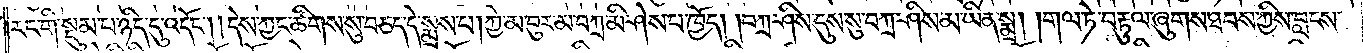རང་གི་སྡུམ་པ་ཉིད་དུ་འདོང༌། །དེས་ཀྱང་ཚིགས་སུ་བཅད་དེ་སྨྲས་པ། ཀྱེ་མ་བུར་མ་བཀྲ་མི་ཤེས་པ་ཁྱོད། །བཀྲ་ཤིས་དུས་སུ་བཀྲ་ཤིས་མ་ཡིན་སྨྲ། །གལ་ཏེ་བརྟུལ་ཞུགས་ཐབས་ཀྱིས་བླངས་
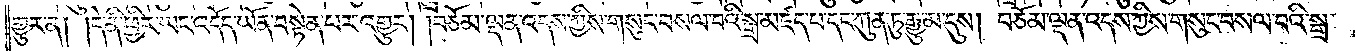གྱུར་ན། །དེ་ནི་ཕྱིར་ཡང་འདོད་ཡོན་བསྟེན་པར་འགྱུར། །བཅོམ་ལྡན་འདས་ཀྱིས་གསུང་བསལ་བའི་སྒྲ་མཛད་པ་དང་ཀུན་ཏུ་རྒྱུ་མ་དུས། བཅོམ་ལྡན་འདས་ཀྱིས་གསུང་བསལ་བའི་སྒྲ་
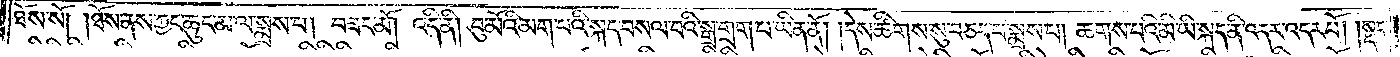ཐོས་སོ། །ཐོས་ནས་ཀྱང་ཆུང་མ་ལ་སྨྲས་པ། བཟང་མོ། འདི་ནི། བུ་མོའི་མག་པའི་སྐད་བསལ་བའི་སྒྲ་གྲག་པ་ཡིན་ནོ། །དེས་ཚིགས་སུ་བཅད་པ་སྨྲས་པ། ཆགས་པའི་མི་ཡི་སྐད་ནི་འདར་འདར་པོ། །སྡང་
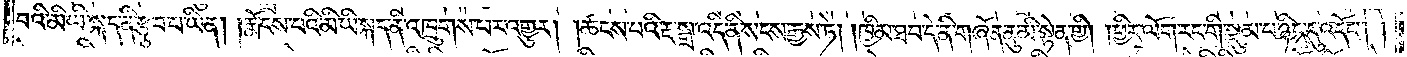བའི་མི་ཡི་སྐད་ནི་རྩུབ་པ་ཡིན། །རྨོངས་པའི་མི་ཡི་སྐད་ནི་འཁྲུགས་པར་འགྱུར། །ཚངས་པའི་རྔ་སྒྲ་འདི་ནི་སངས་རྒྱས་ཏེ། །ཁྱིམ་ཐབ་དེ་ནི་གཞོན་ནུ་མི་སྟེན་གྱི། །ཕྱིར་ལོག་རང་གི་སྡུམ་པ་ཉིད་དུ་འདོང༌། །
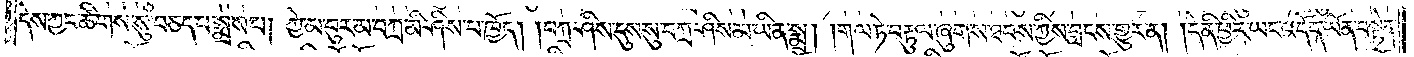དེས་ཀྱང་ཚིགས་སུ་བཅད་པ་སྨྲས་པ། ཀྱེ་མ་བུར་མ་བཀྲ་མི་ཤིས་པ་ཁྱོད། །བཀྲ་ཤིས་དུས་སུ་བཀྲ་ཤིས་མ་ཡིན་སྨྲ་།གལ་ཏེ་བརྟུལ་ཞུགས་ཐབས་ཀྱིས་བླངས་གྱུར་ན། །དེ་ནི་ཕྱིར་ཡང་འདོད་ཡོན་བསྟེན་
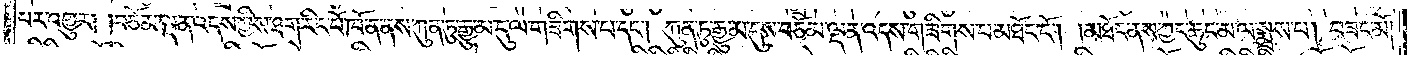པར་འགྱུར། །བཅོམ་ལྡན་འདས་ཀྱིས་ཐག་རིང་པོ་ཁོ་ན་ནས་ཀུན་ཏུ་རྒྱུ་མ་དུ་ལ་གཟིགས་པ་དང༌། ཀུན་ཏུ་རྒྱུ་མ་དུས་བཅོམ་ལྡན་འདས་གཟིགས་པ་མཐོང་ངོ༌། །མཐོང་ནས་ཀྱང་ཆུང་མ་ལ་སྨྲས་པ། བཟང་མོ།
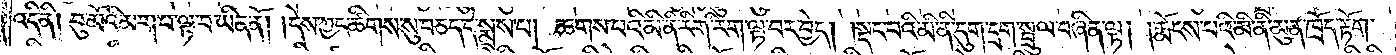འདི་ནི། བུ་མོའི་མག་པ་ལྟ་བ་ཡིན་ནོ། །དེས་ཀྱང་ཚིགས་སུ་བཅད་དེ་སྨྲས་པ། ཆགས་པའི་མི་ནི་རིག་རིག་ལྟ་བར་བྱེད། །སྡང་བའི་མི་ནི་དུག་དྲག་སྦྲུལ་བཞིན་ལྟ། །རྨོངས་པའི་མི་ནི་མུན་ཁྲོད་རྟོག་
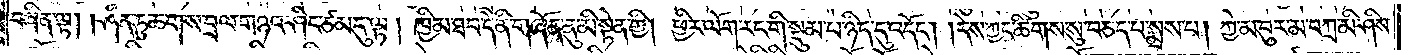བཞིན་ལྟ། །ཤིན་ཏུ་ཆགས་བྲལ་གཉའ་ཤིང་ཙམ་དུ་ལྟ། ཁྱིམ་ཐབ་དེ་ནི་གཞོན་ནུ་མི་སྟེན་གྱི། ཕྱིར་ལོག་རང་གི་སྡུམ་པ་ཉིད་དུ་འདོང༌། །དེས་ཀྱང་ཚིགས་སུ་བཅད་པ་སྨྲས་པ། ཀྱེ་མ་བུར་མ་བཀྲ་མི་ཤིས་
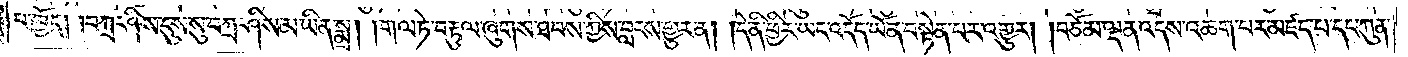པ་ཁྱོད། །བཀྲ་ཤིས་དུས་སུ་བཀྲ་ཤིས་མ་ཡིན་སྨྲ། །གལ་ཏེ་བརྟུལ་ཞུགས་ཐབས་ཀྱིས་བླངས་གྱུར་ན། །དེ་ནི་ཕྱིར་ཡང་འདོད་ཡོན་བསྟེན་པར་འགྱུར། །བཅོམ་ལྡན་འདས་འཆག་པར་མཛད་པ་དང་ཀུན་
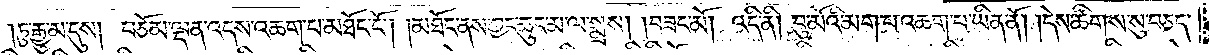ཏུ་རྒྱུ་མ་དུས། བཅོམ་ལྡན་འདས་འཆག་པ་མཐོང་ངོ༌། །མཐོང་ནས་ཀྱང་ཆུང་མ་ལ་སྨྲས། །བཟང་མོ། འདི་ནི། བུ་མོའི་མག་པ་འཆག་པ་ཡིན་ནོ། །དེས་ཚིགས་སུ་བཅད་
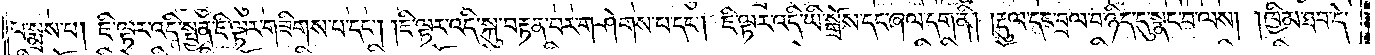པ་སྨྲས་པ། ཇི་ལྟར་འདི་སྤྱན་ཇི་ལྟར་གཟིགས་པ་དང༌། །ཇི་ལྟར་འདི་སྐུ་བརྟན་པར་གཤེགས་པ་དང༌། ཇི་ལྟར་འདི་ཡི་སྒྲོས་དང་ཞལ་དག་ནི། །རྡུལ་དང་བྲལ་བ་ཉིད་དུ་སྣང་བ་ལས། །ཁྱིམ་ཐབ་དེ་
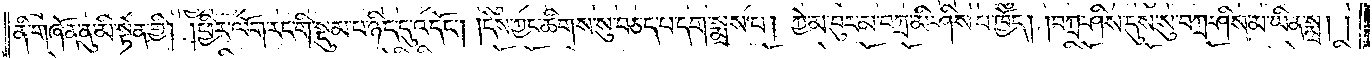ནི་གཞོན་ནུ་མི་སྟེན་གྱི། །ཕྱིར་ལོག་རང་གི་སྡུམ་པ་ཉིད་དུ་འདོང༌། །དེས་ཀྱང་ཚིགས་སུ་བཅད་པ་དག་སྨྲས་པ། ཀྱེ་མ་བུར་མ་བཀྲ་མི་ཤིས་པ་ཁྱོད། །བཀྲ་ཤིས་དུས་སུ་བཀྲ་ཤིས་མ་ཡིན་སྨྲ། །
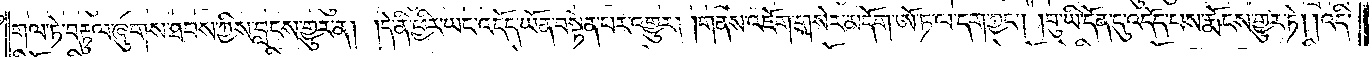གལ་ཏེ་བརྟུལ་ཞུགས་ཐབས་ཀྱིས་བླངས་གྱུར་ན། །དེ་ནི་ཕྱིར་ཡང་འདོད་ཡོན་བསྟེན་པར་འགྱུར། །གནས་འཇོག་གསེར་མདོག་ཨོ་ཏ་ལ་དག་ཀྱང༌། །བུ་ཡི་དོན་དུ་འདོད་པས་རྨོངས་གྱུར་ཏེ། །འདི་
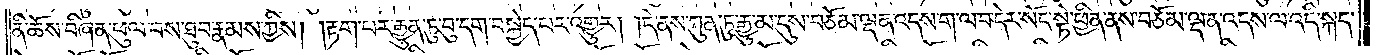ནི་ཆོས་བཞིན་ཕུལ་བས་ཐུབ་རྣམས་ཀྱིས། །རྟག་པར་རྒྱུན་ཏུ་བུ་དག་བསྐྱེད་པར་འགྱུར། །དེ་ནས་ཀུན་ཏུ་རྒྱུ་མ་དུས་བཅོམ་ལྡན་འདས་ག་ལ་བ་དེར་སོང་སྟེ་ཕྱིན་ནས་བཅོམ་ལྡན་འདས་ལ་འདི་སྐད་
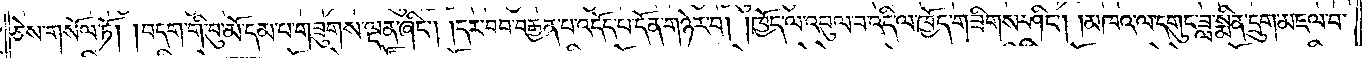ཅེས་གསོལ་ཏོ། །བདག་གི་བུ་མོ་དམ་པ་གཟུགས་ལྡན་ཞིང༌། །དར་བབ་བརྒྱན་པ་འདོད་པ་དོན་གཉེར་བ། །ཁྱོད་ལ་འབུལ་བ་འདི་ལ་ཁྱོད་གཟིགས་ཤིང༌། །མཁའ་ལ་དགུང་ཟླ་སྨིན་དྲུག་མཇལ་བ་
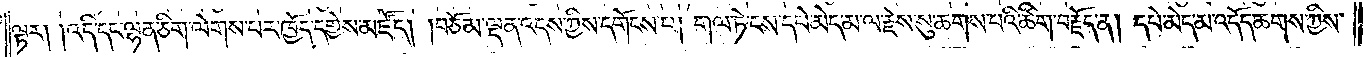ལྟར། །འདི་དང་ལྷན་ཅིག་ལེགས་པར་ཁྱོད་དགྱེས་མཛོད། །བཅོམ་ལྡན་འདས་ཀྱིས་དགོངས་པ། །གལ་ཏེ་ངས་དཔེ་མེད་མ་ལ་རྗེས་སུ་ཆགས་པའི་ཚིག་བརྗོད་ན། དཔེ་མེད་མ་འདོད་ཆགས་ཀྱིས་
